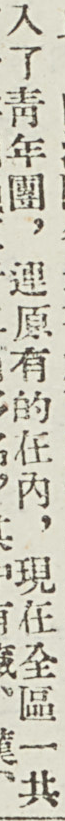入了靑年團，連原有的在內，現在全區一共
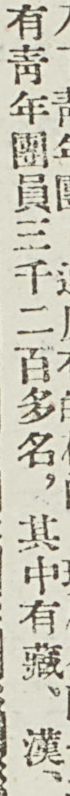有靑年團員三千二百多名，其中有藏、漢、
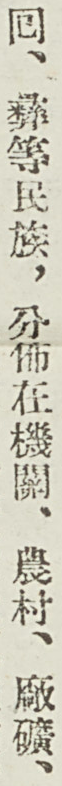囘、彝等民族，分佈在機關、農村、廠礦、
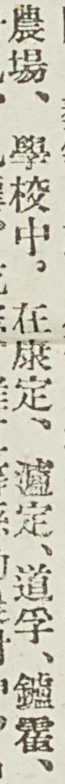農場、學校中。在康定、瀘定、道孚、爐霍、
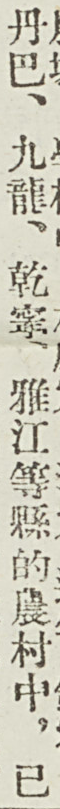丹巴、九龍、乾寧、雅江等縣的農村中，已
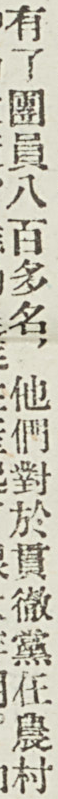有了團員八百多名，他們對於貫徹黨在農村
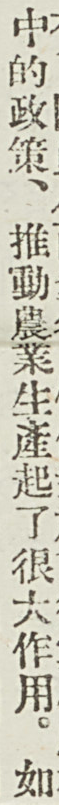中的政策、推動農業生產起了很大作用。如
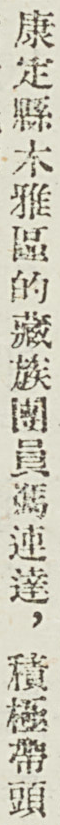康定縣木雅區的藏族團員馬連達，積極帶頭
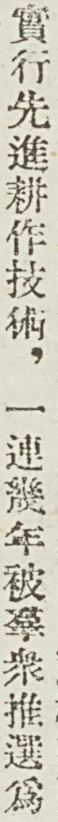實行先進耕作技術，一連幾年被羣衆推選爲
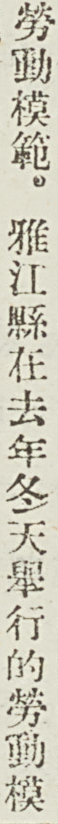勞動模範。雅江縣在去年冬天舉行的勞動模
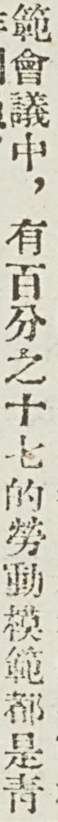範會議中，有百分之十七的勞動模範都是靑
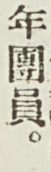年團員。
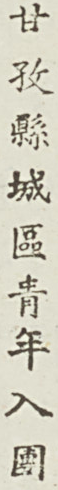甘孜縣城區靑年入團
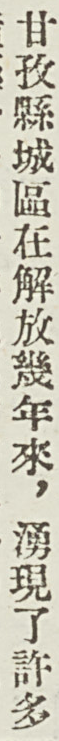甘孜縣城區在解放幾年來，湧現了許多
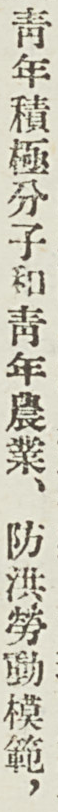靑年積極分子和靑年農業、防洪勞動模範，
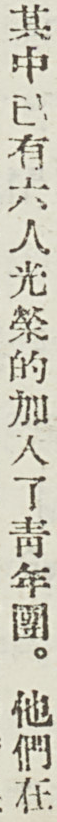其中已有六人光榮的加入了靑年團。他們在
